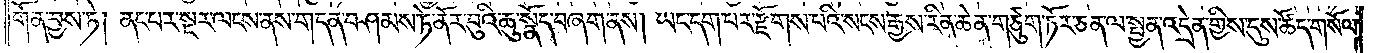གོན་བྱས་ཏེ། ནང་པར་སྔར་ལངས་ནས་གདན་བཤམས་ཏེ་ནོར་བུའི་ཆུ་སྣོད་བཞག་ནས། ཡང་དག་པར་རྫོགས་པའི་སངས་རྒྱས་རིན་ཆེན་གཙུག་ཏོར་ཅན་ལ་སྤྱན་འདྲེན་གྱིས་དུས་ཚོད་གསོལ་
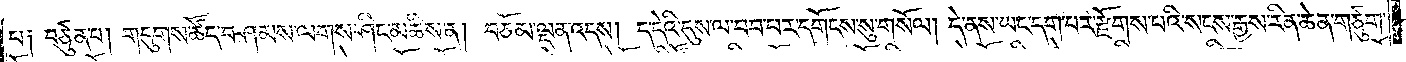པ༑ བཙུན་པ། གདུགས་ཚོད་བཤམས་ལགས་ཤིང་མཆིས་ན། བཅོམ་ལྡན་འདས། ད་དེའི་དུས་ལ་བབ་པར་དགོངས་སུ་གསོལ། དེ་ནས་ཡང་དག་པར་རྫོགས་པའི་སངས་རྒྱས་རིན་ཆེན་གཙུག་
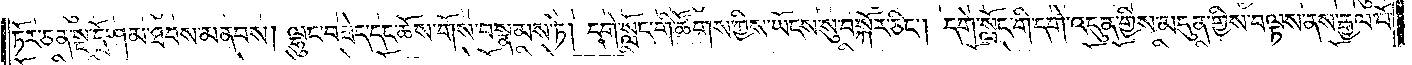ཏོར་ཅན་སྔ་དྲོ་ཤམ་ཐབས་མནབས། ལྷུང་བཟེད་དང་ཆོས་གོས་བསྣམས་ཏེ། དགེ་སློང་གི་ཚོགས་ཀྱིས་ཡོངས་སུ་བསྐོར་ཅིང༌། དགེ་སློང་གི་དགེ་འདུན་གྱིས་མདུན་གྱིས་བལྟས་ནས་རྒྱལ་པོ་
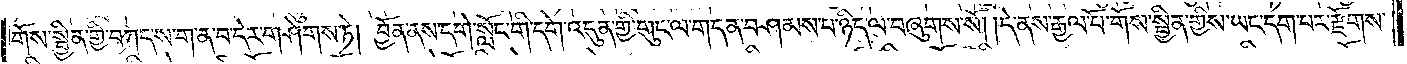གོས་སྦྱིན་གྱི་བཀད་ས་ག་ན་བ་དེར་གཤེགས་ཏེ། བྱོན་ནས་དགེ་སློང་གི་དགེ་འདུན་གྱི་གུང་ལ་གདན་བཤམས་པ་ཉིད་ལ་བཞུགས་སོ། །དེ་ནས་རྒྱལ་པོ་གོས་སྦྱིན་གྱིས་ཡང་དག་པར་རྫོགས་
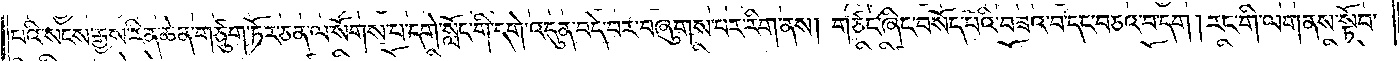པའི་སངས་རྒྱས་རིན་ཆེན་གཙུག་ཏོར་ཅན་ལ་སོགས་པ་དགེ་སློང་གི་དགེ་འདུན་བདེ་བར་བཞུགས་པར་རིག་ནས། གཙང་ཞིང་བསོད་པའི་བཟའ་བ་དང་བཅའ་བ་དག །རང་གི་ལག་ནས་སྟོབ་
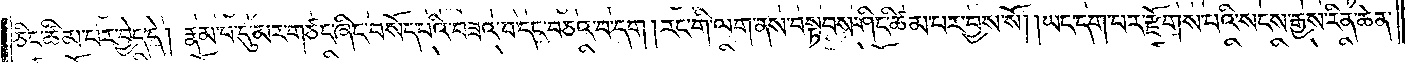ཅིང་ཚིམ་པར་བྱེད་དེ། རྣམ་པ་དུ་མར་གཙང་ཞིང་བསོད་པའི་བཟའ་བ་དང་བཅའ་བ་དག །རང་གི་ལག་ནས་བསྟབས་ཤིང་ཚིམ་པར་བྱས་སོ། །ཡང་དག་པར་རྫོགས་པའི་སངས་རྒྱས་རིན་ཆེན་
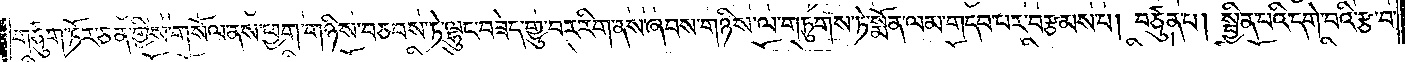གཙུག་ཏོར་ཅན་གྱིས་གསོལ་ནས་ཕྱག་གཉིས་བཅབས་ཏེ་ལྷུང་བཟེད་གྱུ་བར་རིག་ནས་ཞབས་གཉིས་ལ་གཏུགས་ཏེ་སྨོན་ལམ་གདབ་པར་བརྩམས་པ། བཙུན་པ། སྦྱིན་པའི་དགེ་བའི་རྩ་བ་
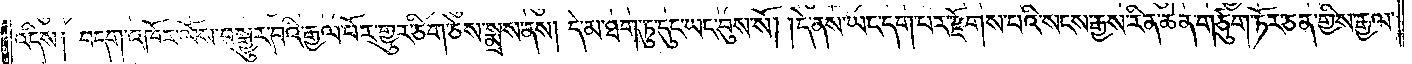འདིས༑ བདག་འཁོར་ལོས་བསྒྱུར་བའི་རྒྱལ་པོར་གྱུར་ཅིག་ཅེས་སྨྲས་ནས། དེ་མ་ཐག་ཏུ་དུང་ཡང་བུས་སོ། །དེ་ནས་ཡང་དག་པར་རྫོགས་པའི་སངས་རྒྱས་རིན་ཆེན་གཙུག་ཏོར་ཅན་གྱིས་རྒྱལ་
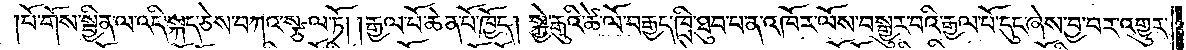པོ་གོས་སྦྱིན་ལ་འདི་སྐད་ཅེས་བཀའ་སྩལ་ཏོ། །རྒྱལ་པོ་ཆེན་པོ་ཁྱོད། སྐྱེ་རྒུའི་ཚེ་ལོ་བརྒྱད་ཁྲི་ཐུབ་པ་ན་འཁོར་ལོས་བསྒྱུར་བའི་རྒྱལ་པོ་དུང་ཞེས་བྱ་བར་འགྱུར་
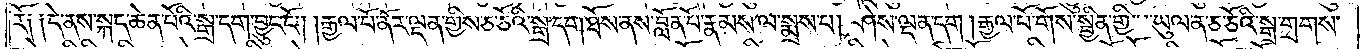རོ༑ ༑དེ་ནས་སྐད་ཆེན་པོའི་སྒྲ་དག་བྱུང་ངོ༌། །རྒྱལ་པོ་ནོར་ལྡན་གྱིས་ཅ་ཅོའི་སྒྲ་དག་ཐོས་ནས་བློན་པོ་རྣམས་ལ་སྨྲས་པ། ཤེས་ལྡན་དག །རྒྱལ་པོ་གོས་སྦྱིན་གྱི་ཡུལ་ན་ཅ་ཅོའི་སྒྲ་གྲགས་
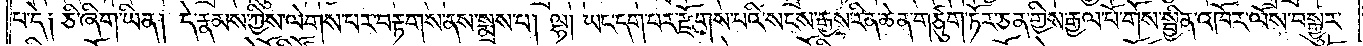པ་དེ༑ ཅི་ཞིག་ཡིན། དེ་རྣམས་ཀྱིས་ལེགས་པར་བརྟགས་ནས་སྨྲས་པ། ལྷ། ཡང་དག་པར་རྫོགས་པའི་སངས་རྒྱས་རིན་ཆེན་གཙུག་ཏོར་ཅན་གྱིས་རྒྱལ་པོ་གོས་སྦྱིན་འཁོར་ལོས་བསྒྱུར་
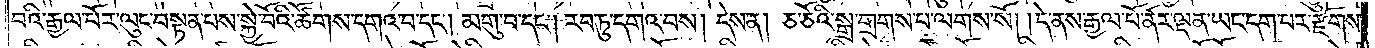བའི་རྒྱལ་པོར་ལུང་བསྟན་པས་སྐྱེ་བོའི་ཚོགས་དགའ་བ་དང༌། མགུ་བ་དང༌། རབ་ཏུ་དགའ་བས། དེས་ན། ཅ་ཅོའི་སྒྲ་གྲགས་པ་ལགས་སོ། །དེ་ནས་རྒྱལ་པོ་ནོར་ལྡན་ཡང་དག་པར་རྫོགས་
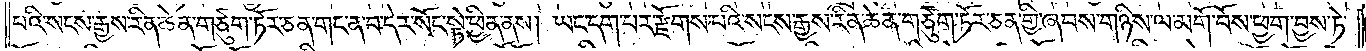པའི་སངས་རྒྱས་རིན་ཆེན་གཙུག་ཏོར་ཅན་གང་ན་བ་དེར་སོང་སྟེ་ཕྱིན་ནས། ཡང་དག་པར་རྫོགས་པའི་སངས་རྒྱས་རིན་ཆེན་གཙུག་ཏོར་ཅན་གྱི་ཞབས་གཉིས་ལ་མགོ་བོས་ཕྱག་བྱས་ཏེ་
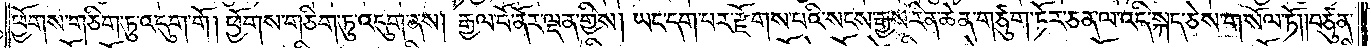ཕྱོགས་གཅིག་ཏུ་འདུག་གོ། ཕྱོགས་གཅིག་ཏུ་འདུག་ནས། རྒྱལ་པོ་ནོར་ལྡན་གྱིས། ཡང་དག་པར་རྫོགས་པའི་སངས་རྒྱས་རིན་ཆེན་གཙུག་ཏོར་ཅན་ལ་འདི་སྐད་ཅེས་གསོལ་ཏོ། །བཙུན་
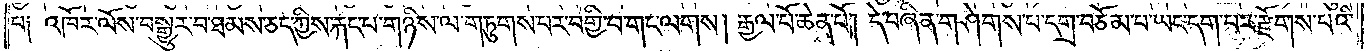པ༑ འཁོར་ལོས་བསྒྱུར་བ་ཐམས་ཅད་ཀྱིས་རྐང་པ་གཉིས་ལ་གཏུགས་པར་བགྱི་བ་གང་ལགས། རྒྱལ་པོ་ཆེན་པོ། དེ་བཞིན་གཤེགས་པ་དགྲ་བཅོམ་པ་ཡང་དག་པར་རྫོགས་པའི་
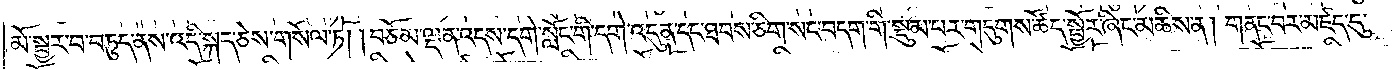མོ་སྦྱར་བ་བཏུད་ནས་འདི་སྐད་ཅེས་གསོལ་ཏོ། །བཅོམ་ལྡན་འདས་དགེ་སློང་གི་དགེ་འདུན་དང་ཐབས་ཅིག་སང་བདག་གི་སྡུམ་པར་གདུགས་ཚོད་སྦྱོར་ཞིང་མཆིས་ན། གནང་བར་མཛད་དུ་
